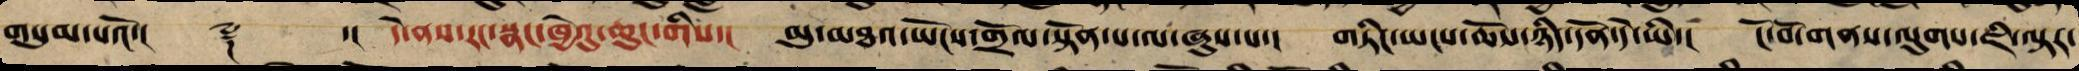གསུམ་པའོ་།། ༈ ་། དེ་ནས་རང་སྣང་ཁྱེའུ་ཆུང་གིས་། མུ་མཐའ་ཡོངས་གྲོལ་སྟོན་པ་ལ་ཞུས་པ་། གཏིང་ཡངས་ཆོས་ཉིད་དོན་དེ་ཡི་། ངོ་བོ་གནས་ལུགས་ཇི་ལྟར་
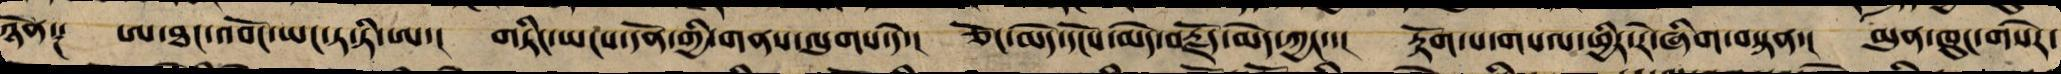ཉོན༑ ཨ་ཐང་འབོང་ཡང་ཏ་ཏི་ཨ་། གཏིང་ཡངས་དོན་གྱི་གནས་ལུགས་དེ་། ཅོང་མེད་དངོས་མེད་བརྗོད་མེད་ཀྱང་་། རྟོག་པ་གསལ་ཕྱིར་རེ་ཞིག་བསྟན་། མུན་ཁུང་གསེར་
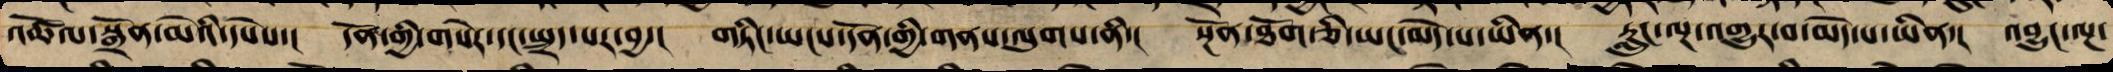འཚོལ་སྒྲོན་མེའི་དཔེས་། དོན་གྱི་གསེར་དང་སྤྲད་པར་བྱ་། གཏིང་ཡངས་དོན་གྱི་གནས་ལུགས་ནི་། སྔོན་ཐོག་ཅི་ཡང་མེད་པ་ཡིན་། རླུང་ལྔ་འགྱུར་བ་མེད་པ་ཡིན་། འབྱུང་ལྔ་
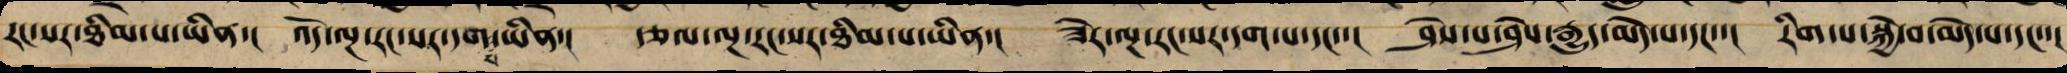རང་སར་ཐིམ་པ་ཡིན་།   འོད་ལྔ་རང་སར་དག་པ་ཡིན་།    ་ཅལ་ལྔ་རང་སར་ཐིམ་པ་ཡིན་།    ཟེར་ལྔ་རང་སར་དག་པ་དང་།   ཤེས་པ་ཤེས་རྒྱུད་མེད་པ་དང་།   རིག་པ་སྐྱེ་བ་མེད་པ་དང་་།
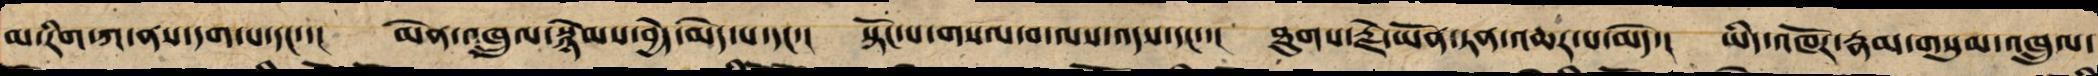མ་རིག་ཀ་ནས་དག་པ་དང་་། མེན་འཁྲུལ་སྙེམས་བྱེད་མེད་པ་དང་། སྟོང་པ་གསལ་བ་ལས་འདས་དང་་། ཐུགས་རྗེ་ཡོན་ཏན་འཆར་པ་མེད་། ཡིད་འཁོར་རྣམ་གསུམ་འཁྲུལ་
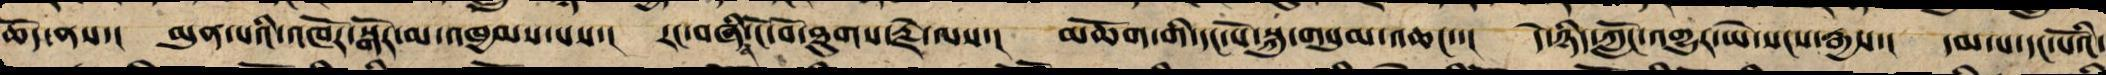ཆོད་ནས་། མུན་པའི་འཁོར་སྒོར་མ་འཁྱམས་པས་། རང་བཞི་ངོ་བོ་ཐུགས་རྗེ་ལས་། མཆོག་གི་དང་པོ་སྐུ་གསུམ་འཆང་་། དེ་ཉིད་ཀློང་གྱུར་ཡེ་སངས་རྒྱས་། དམ་པ་དང་པོའི་
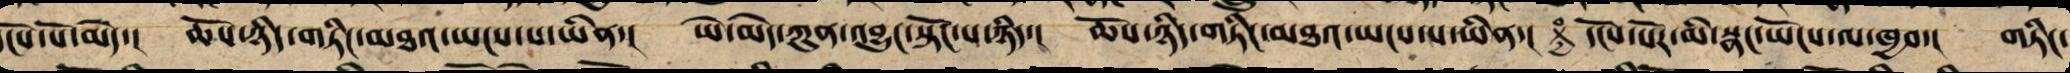ངོས་པོ་མེད་། ཆོས་ཉིད་གཏིང་མཐའ་ཡངས་པ་ཡིན་། ཡེ་མེད་ཀུན་འབྱུང་སྟོང་པ་ཉིད་། ཆོས་ཉིད་གཏིང་མཐའ་ཡངས་པ་ཡིན་། དངོས་པོར་མི་སྣང་ཡོངས་ལ་ཁྱབ་། གཏིང་
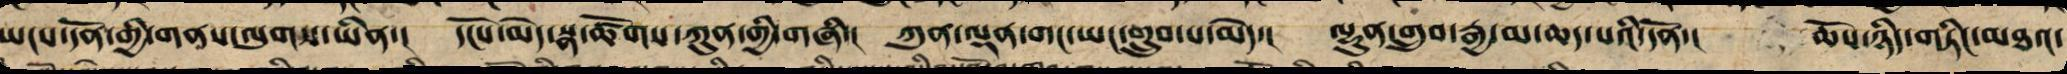ཡངས་དོན་གྱི་གནས་ལུགས་ཡིན་། དངོས་མེད་སྣ་ཚོགས་ཀུན་གྱི་གཞི་། ཀུན་ལྡན་གང་ཡང་གྲུབ་པ་མེད་། ལྷུན་གྲུབ་རྒྱ་མ་ཆད་པའི་དོན་། ཆོས་ཉིད་གཏིང་མཐའ་
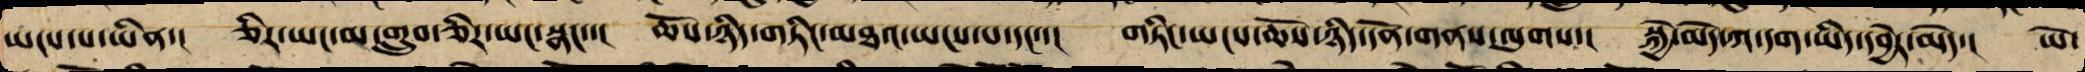ཡངས་པ་ཡིན་། ཅིར་ཡང་མ་གྲུབ་ཅིར་ཡང་སྣང་་། ཆོས་ཉིད་གཏིང་མཐའ་ཡངས་པ་དང་་། གཏིང་ཡངས་ཆོས་ཉིད་དོན་གནས་ལུགས་། སྐྱེ་མེད་ཀ་དག་ཡིད་དབྱེར་མེད་། ཡེ་
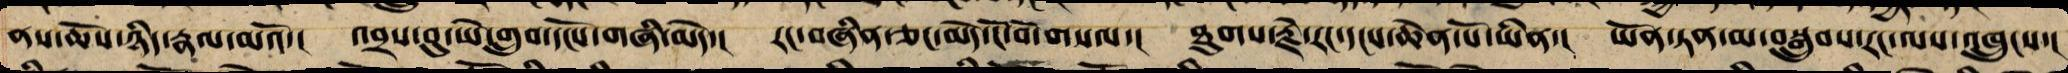ནས་ཆོས་ཉིད་རྣལ་མའོ་། འབྲས་བུ་ཡེ་གྲུབ་དངོས་གཞི་མེད་། རང་བཞིན་ཅང་མེད་ངོ་བོ་གསལ་། ཐུགས་རྗེ་རང་དངས་ཆེན་པོ་ཡིན་། ཡོན་ཏན་མ་བསྒྲུབས་རང་ལས་འཁྲུངས་།
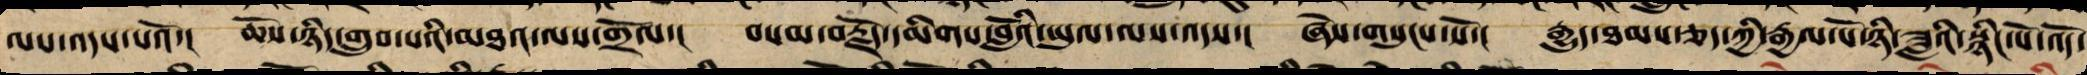ལས་འདས་པའོ་། ཆོས་ཉིད་གྲུབ་པའི་མཐའ་ལས་གྲོལ་། བསམ་བརྗོད་དམིགས་བློའི་ཡུལ་ལས་འདས་། ཞེས་གསུངས་སོ་། རྒྱུད་ཐམས་ཅད་ཀྱི་རྒྱལ་པོ་ཉི་ཟླའི་སྙིང་པོ་འོད་
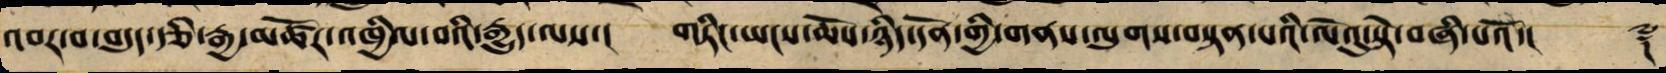འབར་བ་བདུད་རྩིའི་རྒྱ་མཚོར་འཁྱིལ་པའི་རྒྱུད་ལས་། གཏིང་ཡངས་ཆོས་ཉིད་དོན་གྱི་གནས་ལུགས་བསྟན་པའི་ལེའུ་སྟེ་བཞི་པའོ་།། ༈
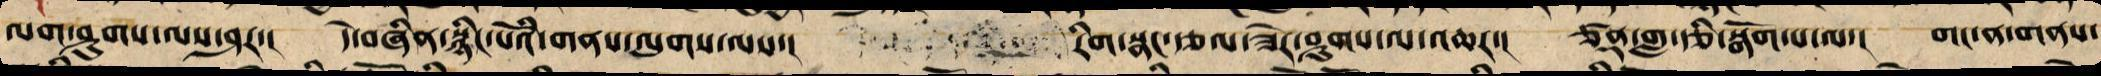ལག་ཤུགས་ལས་ཤར་། དེ་བཞིན་སྙིང་པོའི་གནས་ལུགས་ལས་། རིག་སྣང་རྩལ་ཟེར་ཤུགས་ལ་འཆར་། ཙནྡན་གླ་རྩི་སྒོག་པ་ལ་། གང་ན་གནས་
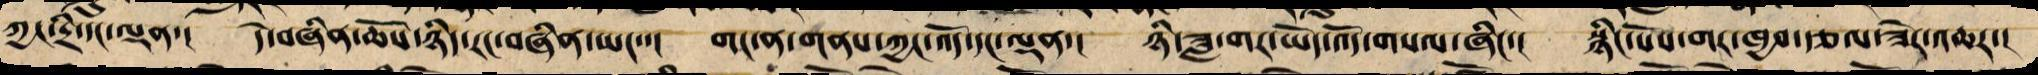ཀྱང་དྲི་ངད་ལྡན་། དེ་བཞིན་ཆོས་ཉིད་རང་བཞིན་ཡང་་། གང་ན་གནས་ཀྱང་འོད་དང་ལྡན་། ཉི་ཟླ་གར་ཡོད་འོད་གསལ་ཞིང་། སྙིང་པོས་གར་ཁྱབ་རྩལ་ཟེར་འཆར་།
